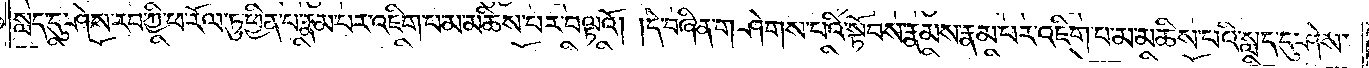སླད་དུ་ཤེས་རབ་ཀྱི་ཕ་རོལ་ཏུ་ཕྱིན་པ་རྣམ་པར་འཇིག་པ་མ་མཆིས་པར་བལྟའོ། །དེ་བཞིན་གཤེགས་པའི་སྟོབས་རྣམས་རྣམ་པར་འཇིག་པ་མ་མཆིས་པའི་སླད་དུ་ཤེས་
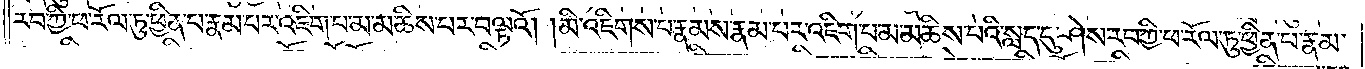རབ་ཀྱི་ཕ་རོལ་ཏུ་ཕྱིན་པ་རྣམ་པར་འཇིག་པ་མ་མཆིས་པར་བལྟའོ། །མི་འཇིགས་པ་རྣམས་རྣམ་པར་འཇིག་པ་མ་མཆིས་པའི་སླད་དུ་ཤེས་རབ་ཀྱི་ཕ་རོལ་ཏུ་ཕྱིན་པ་རྣམ་
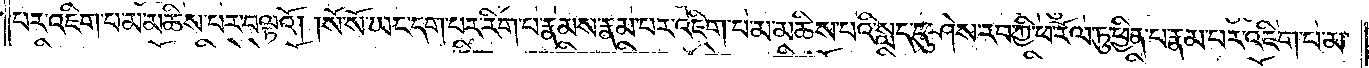པར་འཇིག་པ་མ་མཆིས་པར་བལྟའོ། །སོ་སོ་ཡང་དག་པར་རིག་པ་རྣམས་རྣམ་པར་འཇིག་པ་མ་མཆིས་པའི་སླད་དུ་ཤེས་རབ་ཀྱི་ཕ་རོལ་ཏུ་ཕྱིན་པ་རྣམ་པར་འཇིག་པ་མ་
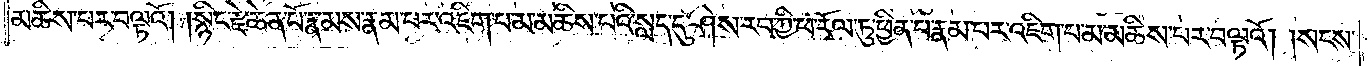མཆིས་པར་བལྟའོ། །སྙིང་རྗེ་ཆེན་པོ་རྣམ་པར་འཇིག་པ་མ་མཆིས་པའི་སླད་དུ་ཤེས་རབ་ཀྱི་ཕ་རོལ་ཏུ་ཕྱིན་པ་རྣམ་པར་འཇིག་པ་མ་མཆིས་པར་བལྟའོ། །སངས་
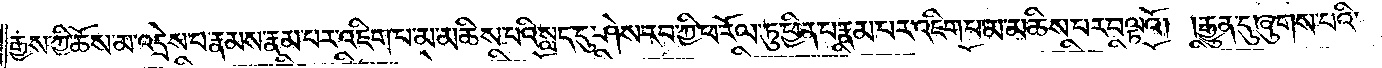རྒྱས་ཀྱི་ཆོས་མ་འདྲེས་པ་རྣམས་རྣམ་པར་འཇིག་པ་མ་མཆིས་པའི་སླད་དུ་ཤེས་རབ་ཀྱི་ཕ་རོལ་ཏུ་ཕྱིན་པ་རྣམ་པར་འཇིག་པ་མ་མཆིས་པར་བལྟའོ། །རྒྱུན་དུ་ཞུགས་པའི་
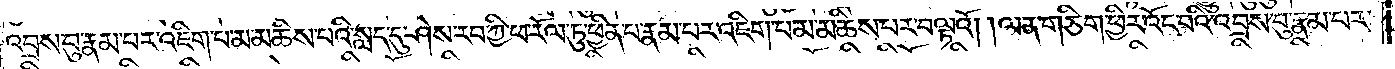འབྲས་བུ་རྣམ་པར་འཇིག་པ་མ་མཆིས་པའི་སླད་དུ་ཤེས་རབ་ཀྱི་ཕ་རོལ་ཏུ་ཕྱིན་པ་རྣམ་པར་འཇིག་པ་མ་མཆིས་པར་བལྟའོ། །ལན་ཅིག་ཕྱིར་འོང་བའི་འབྲས་བུ་རྣམ་པར་
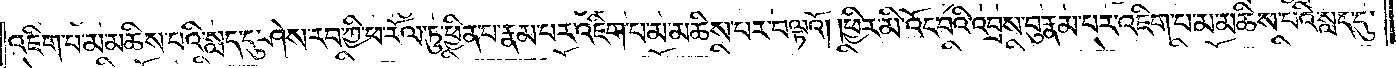འཇིག་པ་མ་མཆིས་པའི་སླད་དུ་ཤེས་རབ་ཀྱི་ཕ་རོལ་ཏུ་ཕྱིན་པ་རྣམ་པར་འཇིག་པ་མ་མཆིས་པར་བལྟའོ། །ཕྱིར་མི་འོང་བའི་འབྲས་བུ་རྣམ་པར་འཇིག་པ་མ་མཆིས་པའི་སླད་དུ་
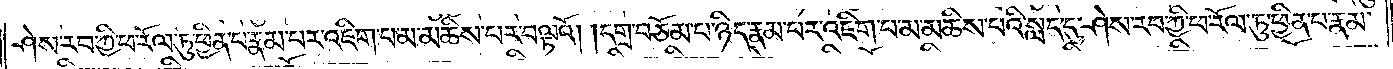ཤེས་རབ་ཀྱི་ཕ་རོལ་ཏུ་ཕྱིན་པ་རྣམ་པར་འཇིག་པ་མ་མཆིས་པར་བལྟའོ། །དགྲ་བཅོམ་པ་ཉིད་རྣམ་པར་འཇིག་པ་མ་མཆིས་པའི་སླད་དུ་ཤེས་རབ་ཀྱི་ཕ་རོལ་ཏུ་ཕྱིན་པ་རྣམ་
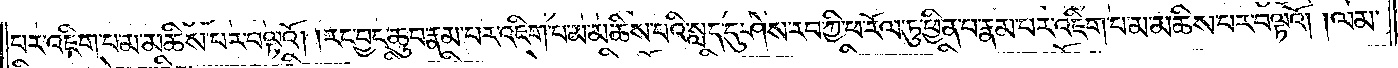པར་འཇིག་པ་མ་མཆིས་པར་བལྟའོ། །རང་བྱང་ཆུབ་རྣམ་པར་འཇིག་པ་མ་མཆིས་པའི་སླད་དུ་ཤེས་རབ་ཀྱི་ཕ་རོལ་ཏུ་ཕྱིན་པ་རྣམ་པར་འཇིག་པ་མ་མཆིས་པར་བལྟའོ། །ལམ་
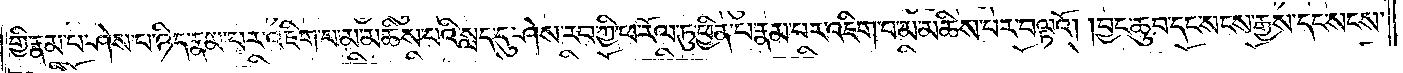གྱི་རྣམ་པ་ཤེས་པ་ཉིད་རྣམ་པར་འཇིག་པ་མ་མཆིས་པའི་སླད་དུ་ཤེས་རབ་ཀྱི་ཕ་རོལ་ཏུ་ཕྱིན་པ་རྣམ་པར་འཇིག་པ་མ་མཆིས་པར་བལྟའོ། །བྱང་ཆུབ་དང་སངས་རྒྱས་དང་སངས་
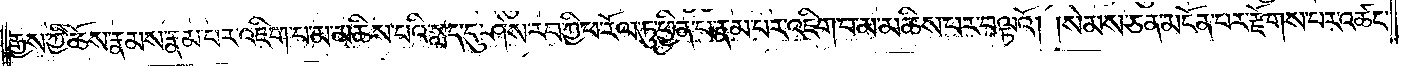རྒྱས་ཀྱི་ཆོས་རྣམས་རྣམ་པར་འཇིག་པ་མ་མཆིས་པའི་སླད་དུ་ཤེས་རབ་ཀྱི་ཕ་རོལ་ཏུ་ཕྱིན་པ་རྣམ་པར་འཇིག་པ་མ་མཆིས་པར་བལྟའོ། །སེམས་ཅན་མངོན་པར་རྫོགས་པར་འཚང་
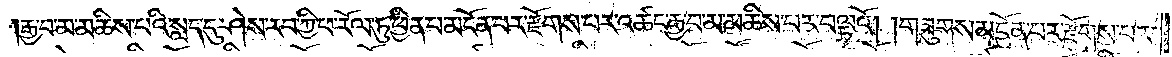རྒྱ་བ་མ་མཆིས་པའི་སླད་དུ་ཤེས་རབ་ཀྱི་ཕ་རོལ་ཏུ་ཕྱིན་པ་མངོན་པར་རྫོགས་པར་འཚང་རྒྱ་བ་མ་མཆིས་པར་བལྟའོ། །གཟུགས་མངོན་པར་རྫོགས་པར་
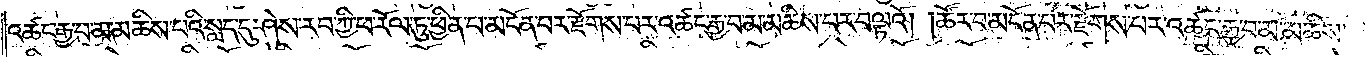འཚང་རྒྱ་བ་མ་མཆིས་པའི་སླད་དུ་ཤེས་རབ་ཀྱི་ཕ་རོལ་ཏུ་ཕྱིན་པ་མངོན་པར་རྫོགས་པར་འཚང་རྒྱ་བ་མ་མཆིས་པར་བལྟའོ། །ཚོར་བ་མངོན་པར་རྫོགས་པར་འཚང་རྒྱ་བ་མ་མཆིས་
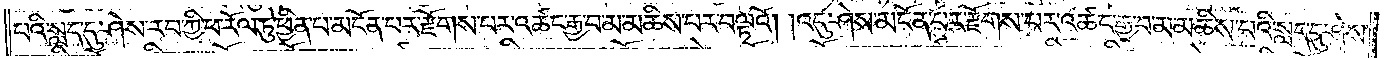པའི་སླད་དུ་ཤེས་རབ་ཀྱི་ཕ་རོལ་ཏུ་ཕྱིན་པ་མངོན་པར་རྫོགས་པར་འཚང་རྒྱ་བ་མ་མཆིས་པར་བལྟའོ། །འདུ་ཤེས་མངོན་པར་རྫོགས་པར་འཚང་རྒྱ་བ་མ་མཆིས་པའི་སླད་དུ་ཤེས་
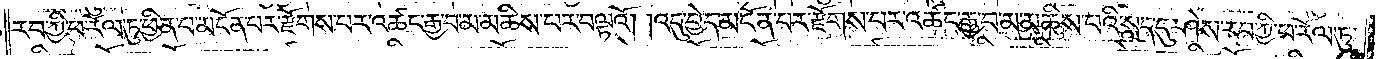རབ་ཀྱི་ཕ་རོལ་ཏུ་ཕྱིན་པ་མངོན་པར་རྫོགས་པར་འཚང་རྒྱ་བ་མ་མཆིས་པར་བལྟའོ། །འདུ་བྱེད་མངོན་པར་རྫོགས་པར་འཚང་རྒྱ་བ་མ་མཆིས་པའི་སླད་དུ་ཤེས་རབ་ཀྱི་ཕ་རོལ་ཏུ་
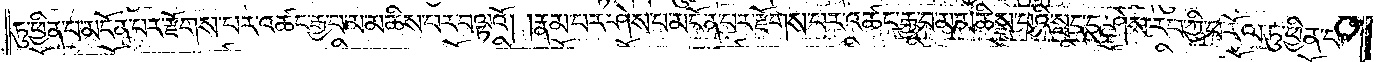ཏུ་ཕྱིན་པ་མངོན་པར་རྫོགས་པར་འཚང་རྒྱ་བ་མ་མཆིས་པར་བལྟའོ། །རྣམ་པར་ཤེས་པ་མངོན་པར་རྫོགས་པར་འཚང་རྒྱ་བ་མ་མཆིས་པའི་སླད་དུ་ཤེས་རབ་ཀྱི་ཕ་རོལ་ཏུ་ཕྱིན་པ་
